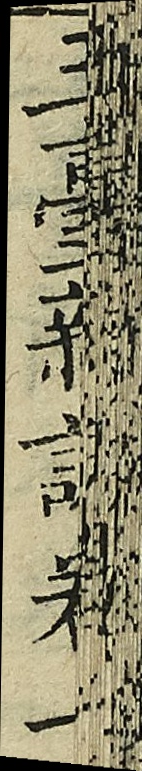玉臺新詠卷一
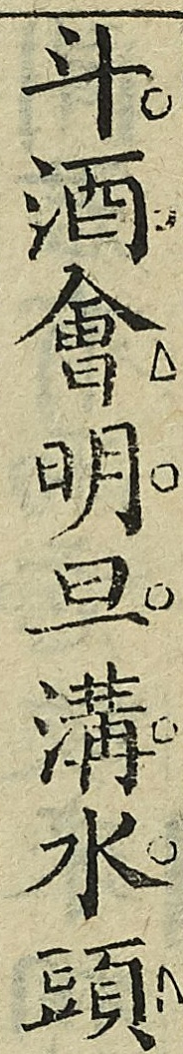斗酒會明旦溝水頭
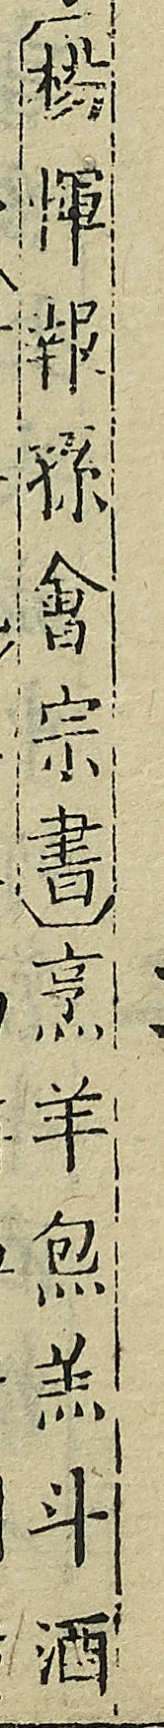（楊惲報孫會宗書）烹羊炰羔斗酒
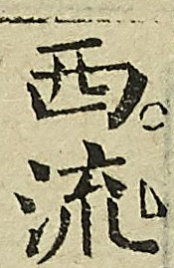西流
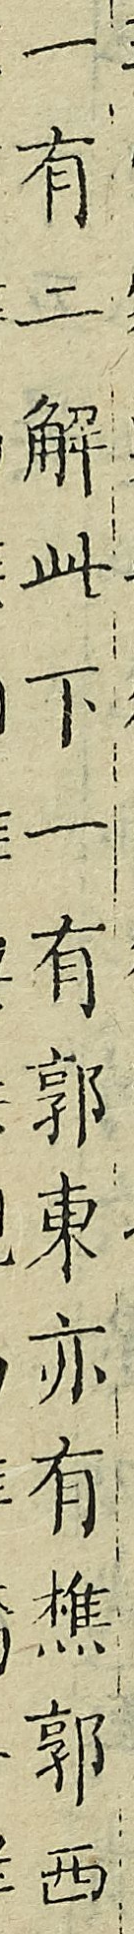一有二解此下一有郭東亦有樵郭西
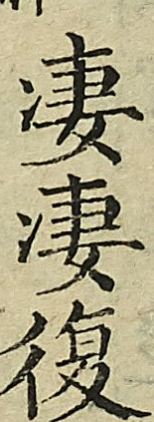凄凄復
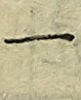一
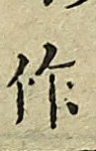作
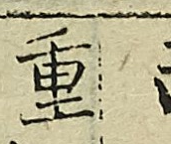重
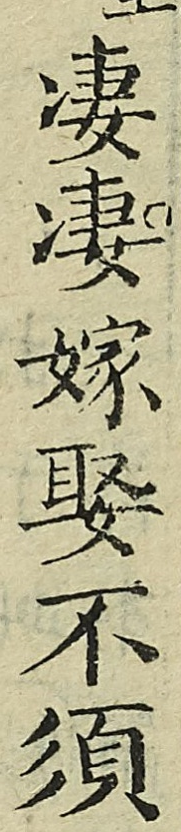凄凄嫁娶不須
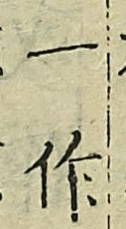一作
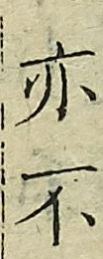亦不
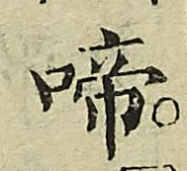啼
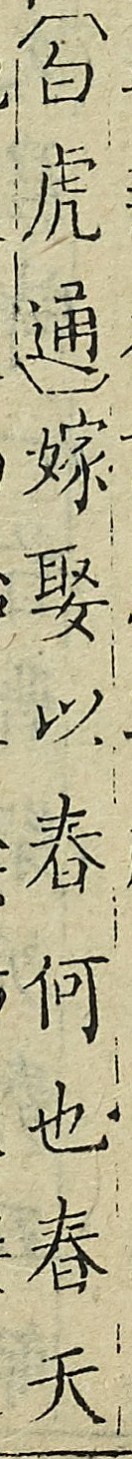（白虎通）嫁娶以春何也春天
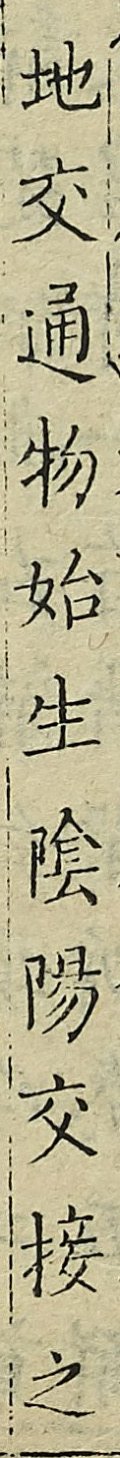地交通物始生陰陽交接之
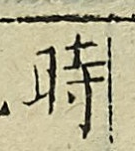時
